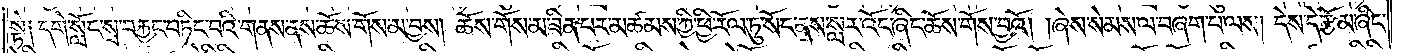སྟེ༑ དགེ་སློང་སྲ་བརྐྱང་བཏིང་བའི་གནས་ནས་ཆོས་གོས་མ་བྱས། ཆོས་གོས་མ་ཟིན་པར་མཚམས་ཀྱི་ཕྱི་རོལ་ཏུ་སོང་ནས་སླར་འོང་ཞིང་ཆོས་གོས་བྱའོ། །ཞེས་སེམས་ལ་བཞག་པ་ལས། དེས་དེ་རྩོམ་ཞིང་
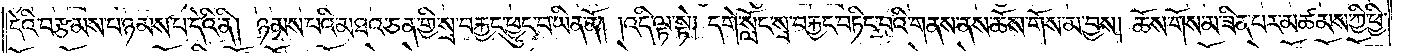དེའི་བརྩམས་པ་ཉམས་པ་དེའི་ནི། ཉམས་པའི་མཐའ་ཅན་གྱི་སྲ་བརྐྱང་ཕྱུང་བ་ཡིན་ནོ། །འདི་ལྟ་སྟེ། དགེ་སློང་སྲ་བརྐྱང་བཏིང་བའི་གནས་ནས་ཆོས་གོས་མ་བྱས། ཆོས་གོས་མ་ཟིན་པར་མཚམས་ཀྱི་ཕྱི་
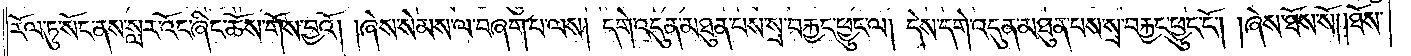རོལ་ཏུ་སོང་ནས་སླར་འོང་ཞིང་ཆོས་གོས་བྱའོ། །ཞེས་སེམས་ལ་བཞག་པ་ལས། དགེ་འདུན་མཐུན་པས་སྲ་བརྐྱང་ཕྱུང་ལ། དེས་དགེ་འདུན་མཐུན་པས་སྲ་བརྐྱང་ཕྱུང་ངོ༌། །ཞེས་ཐོས་སོ། །ཐོས་
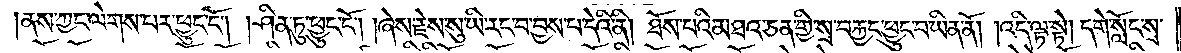ནས་ཀྱང་ལེགས་པར་ཕྱུང་ངོ༌། །ཤིན་ཏུ་ཕྱུང་ངོ༌། །ཞེས་རྗེས་སུ་ཡི་རང་བ་བྱས་པ་དེའི་ནི། ཐོས་པའི་མཐའ་ཅན་གྱི་སྲ་བརྐྱང་ཕྱུང་བ་ཡིན་ནོ། །འདི་ལྟ་སྟེ། དགེ་སློང་སྲ་
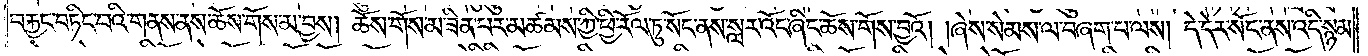བརྐྱང་བཏིང་བའི་གནས་ནས་ཆོས་གོས་མ་བྱས། ཆོས་གོས་མ་ཟིན་པར་མཚམས་ཀྱི་ཕྱི་རོལ་ཏུ་སོང་ནས་སླར་འོང་ཞིང་ཆོས་གོས་བྱའོ། །ཞེས་སེམས་ལ་བཞག་པ་ལས། དེ་དེར་སོང་ནས་འདི་སྙམ་
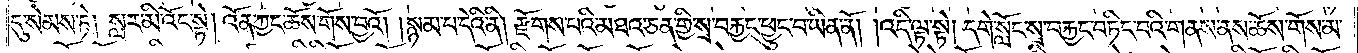དུ་སེམས་ཏེ། སླར་མི་འོང་སྟེ། འོན་ཀྱང་ཆོས་གོས་བྱའོ། །སྙམ་པ་དེའི་ནི། རྫོགས་པའི་མཐའ་ཅན་གྱི་སྲ་བརྐྱང་ཕྱུང་བ་ཡིན་ནོ། །འདི་ལྟ་སྟེ། དགེ་སློང་སྲ་བརྐྱང་བཏིང་བའི་གནས་ནས་ཆོས་གོས་མ་
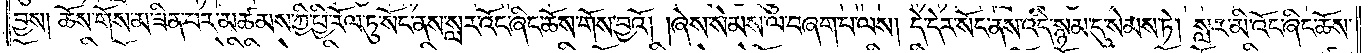བྱས། ཆོས་གོས་མ་ཟིན་པར་མཚམས་ཀྱི་ཕྱི་རོལ་ཏུ་སོང་ནས་སླར་འོང་ཞིང་ཆོས་གོས་བྱའོ། །ཞེས་སེམས་ལ་བཞག་པ་ལས། དེ་དེར་སོང་ནས་འདི་སྙམ་དུ་སེམས་ཏེ། སླར་མི་འོང་ཞིང་ཆོས་
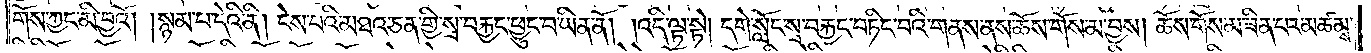གོས་ཀྱང་མི་བྱའོ། །སྙམ་པ་དེའི་ནི། ངེས་པའི་མཐའ་ཅན་གྱི་སྲ་བརྐྱང་ཕྱུང་བ་ཡིན་ནོ། །འདི་ལྟ་སྟེ། དགེ་སློང་སྲ་བརྐྱང་བཏིང་བའི་གནས་ནས་ཆོས་གོས་མ་བྱས། ཆོས་གོས་མ་ཟིན་པར་མཚམས་
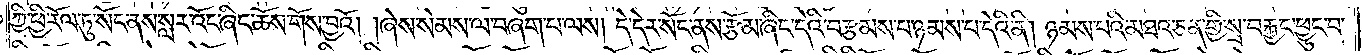ཀྱི་ཕྱི་རོལ་ཏུ་སོང་ནས་སླར་འོང་ཞིང་ཆོས་གོས་བྱའོ། །ཞེས་སེམས་ལ་བཞག་པ་ལས། དེ་དེར་སོང་ནས་རྩོམ་ཞིང་དེའི་བརྩམས་པ་ཉམས་པ་དེའི་ནི། ཉམས་པའི་མཐའ་ཅན་གྱི་སྲ་བརྐྱང་ཕྱུང་བ་
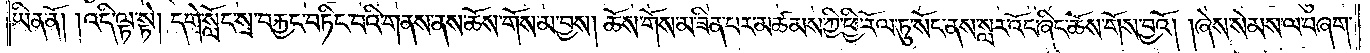ཡིན་ནོ། །འདི་ལྟ་སྟེ། དགེ་སློང་སྲ་བརྐྱང་བཏིང་བའི་གནས་ནས་ཆོས་གོས་མ་བྱས། ཆོས་གོས་མ་ཟིན་པར་མཚམས་ཀྱི་ཕྱི་རོལ་ཏུ་སོང་ནས་སླར་འོང་ཞིང་ཆོས་གོས་བྱའོ། །ཞེས་སེམས་ལ་བཞག་
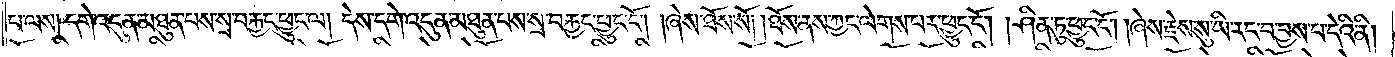པ་ལས། དགེ་འདུན་མཐུན་པས་སྲ་བརྐྱང་ཕྱུང་ལ། དེས་དགེ་འདུན་མཐུན་པས་སྲ་བརྐྱང་ཕྱུང་ངོ༌། །ཞེས་ཐོས་སོ། །ཐོས་ནས་ཀྱང་ལེགས་པར་ཕྱུང་ངོ༌། །ཤིན་ཏུ་ཕྱུང་ངོ༌། །ཞེས་རྗེས་སུ་ཡི་རང་བ་བྱས་པ་དེའི་ནི།
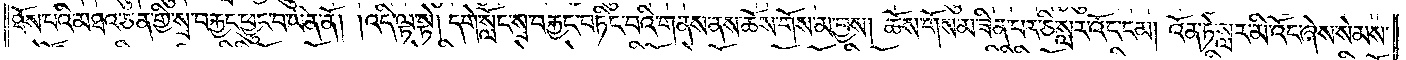ཐོས་པའི་མཐའ་ཅན་གྱི་སྲ་བརྐྱང་ཕྱུང་བ་ཡིན་ནོ། །འདི་ལྟ་སྟེ། དགེ་སློང་སྲ་བརྐྱང་བཏིང་བའི་གནས་ནས་ཆོས་གོས་མ་བྱས། ཆོས་གོས་མ་ཟིན་པར་ཅི་སླར་འོང་ངམ། འོན་ཏེ་སླར་མི་འོང་ཞེས་སེམས་
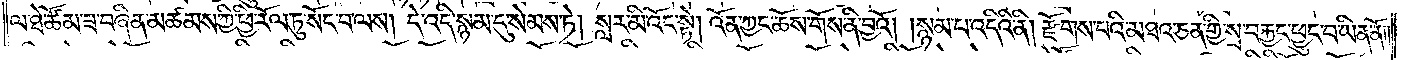ལ་ཐེ་ཚོམ་ཟ་བཞིན་མཚམས་ཀྱི་ཕྱི་རོལ་ཏུ་སོང་བ་ལས། དེ་འདི་སྙམ་དུ་སེམས་ཏེ། སླར་མི་འོང་སྟེ། འོན་ཀྱང་ཆོས་གོས་ནི་བྱའོ། །སྙམ་པ་འདིའི་ནི། རྫོགས་པའི་མཐའ་ཅན་གྱི་སྲ་བརྐྱང་ཕྱུང་བ་ཡིན་ནོ། །
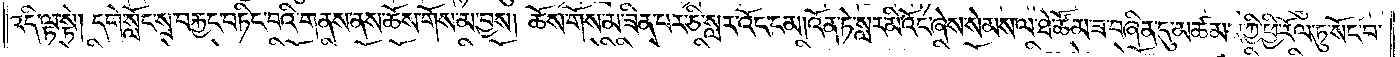འདི་ལྟ་སྟེ། དགེ་སློང་སྲ་བརྐྱང་བཏིང་བའི་གནས་ནས་ཆོས་གོས་མ་བྱས། ཆོས་གོས་མ་ཟིན་པར་ཅི་སླར་འོང་ངམ། འོན་ཏེ་སླར་མི་འོང་ཞེས་སེམས་ལ་ཐེ་ཚོམ་ཟ་བཞིན་དུ་མཚམས་ཀྱི་ཕྱི་རོལ་ཏུ་སོང་བ་
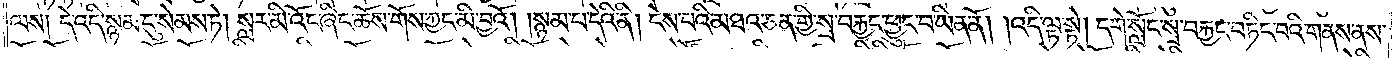ལས། དེ་འདི་སྙམ་དུ་སེམས་ཏེ། སླར་མི་འོང་ཞིང་ཆོས་གོས་ཀྱང་མི་བྱའོ། །སྙམ་པ་དེའི་ནི། ངེས་པའི་མཐའ་ཅན་གྱི་སྲ་བརྐྱང་ཕྱུང་བ་ཡིན་ནོ། །འདི་ལྟ་སྟེ། དགེ་སློང་སྲ་བརྐྱང་བཏིང་བའི་གནས་ནས་
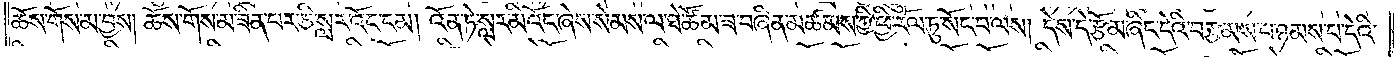ཆོས་གོས་མ་བྱས། ཆོས་གོས་མ་ཟིན་པར་ཅི་སླར་འོང་ངམ། འོན་ཏེ་སླར་མི་འོང་ཞེས་སེམས་ལ་ཐེ་ཚོམ་ཟ་བཞིན་མཚམས་ཀྱི་ཕྱི་རོལ་ཏུ་སོང་བ་ལས། དེས་དེ་རྩོམ་ཞིང་དེའི་བརྩམས་པ་ཉམས་པ་དེའི་
